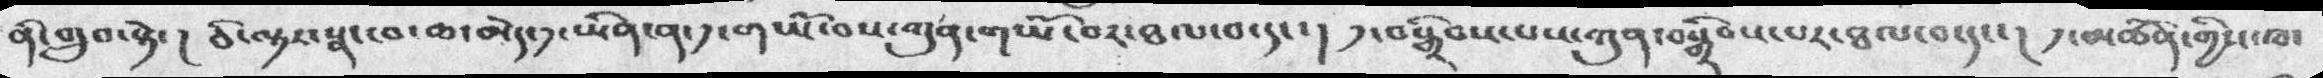ནི་གྲུབ་སྟེ་། ཅི་ལྟར་སྣང་བ་ཆ་མེད་༡་ཡིན་ན་༡་གཡོ་བས་ཀུན་གཡོ་བར་ཐལ་བ་དང་། ༡་བསྒྲིབས་པས་ཀུན་བསྒྲིབས་པར་ཐལ་བ་དང་།  ༡་མཚོན་གྱིས་ཁ་
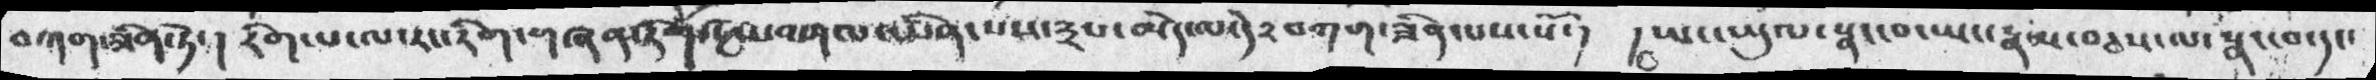བཀག་ཟིན་ཏེ་།   རིག་པ་ལ་རང་རིག་གཞན་རིག་སྔོས་བགལ་ཡིན་པས་༣པ་མེད་ལ་དེ༢་བགག་ཟིན་པས་སོ་།   ། ཡང་ཡུལ་སྣང་བ་ཡང་རྣམ་བཅས་ལ་སྣང་བ་དང་
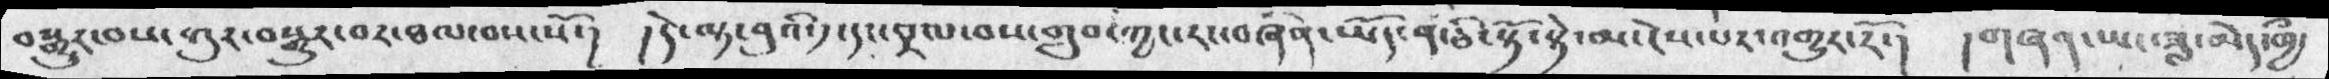བསྒྱུར་བས་ཀུར་བསྒྱུར་བར་ཐལ་བས་སོ་།  །དེ་ལྟ་བུའི་༡་དང་བྲལ་བས་གྲུབ་ཀྱང་རང་བཞིན་ཡོད་ན་ཅི་སྟོ་སྟེ་མ་ངེས་པར་འགྱུར་རོ་།  །གཞན་ཡང་ཟླ་མེད་ཁྱཾ་
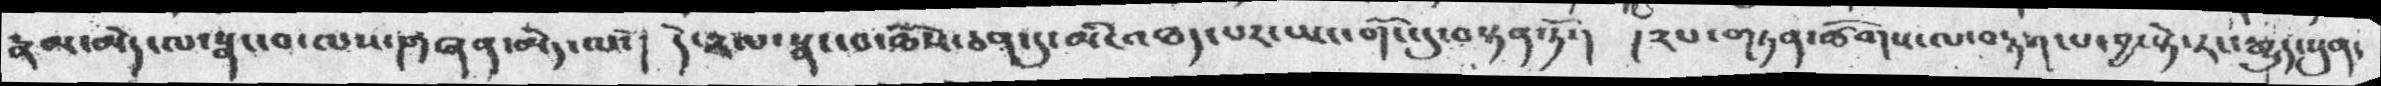རྣམ་མེད་ལ་སྣང་བ་ལས་གཞན་མེད་ལ་།  དེ་༢ལ་སྣང་བ་ཆོས་ཅན་དུ་མི་འཐད་པར་ཡང་གོང་དུ་བསྟན་ཏོ་།  །༢པ་གཏན་ཚོགས་ལ་བརྟག་པ་བྱ་སྟེ་རང་རྒྱུད་སུན་
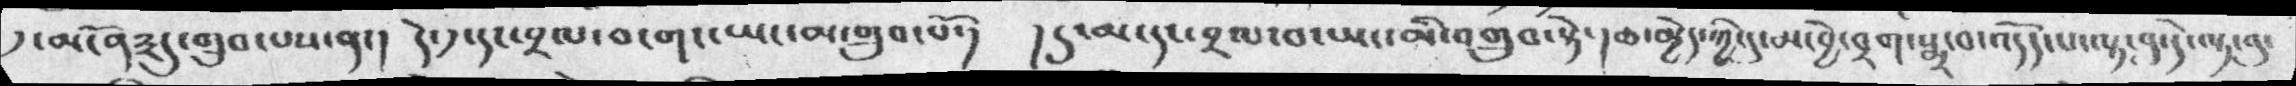དུ་མངོན༣དུ་གྲུབ་པས་ན་།  དེ་༡་དང་བྲལ་བ་གང་ཡང་མ་གྲུབ་པོ་།  །དུ་མ་དང་བྲལ་བ་ཡང་མི་འགྲུབ་སྟེ་།ཆ་མྱེད་ཀྱི་དུ་མ་བྱེ་བྲག་སྨྲ་བ་འདོད་པ་ལྟ་བུ་དེ་ལྟ་བུ་
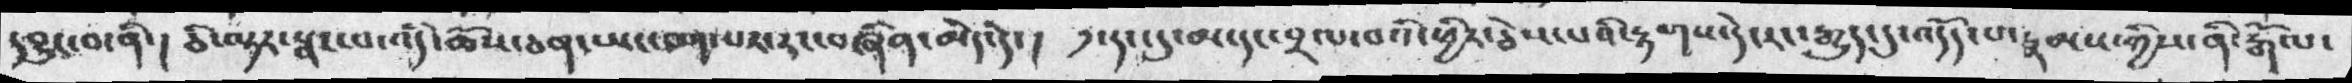དབྱུང་བ་ནི་།  ཅི་ལྟར་སྣང་པ་འདི་ཆོས་ཅན་ཡང་བག་པར་རང་བཞིན་མེད་དེ་།   ༡་དང་དུ་མ་དང་བྲལ་བའི་ཕྱིར་ཅེས་པའི་རྟགས་དེ་རང་རྒྱུད་དུ་འདོད་པ་རྣམས་ཀྱིས་ནི་རྒོལ་
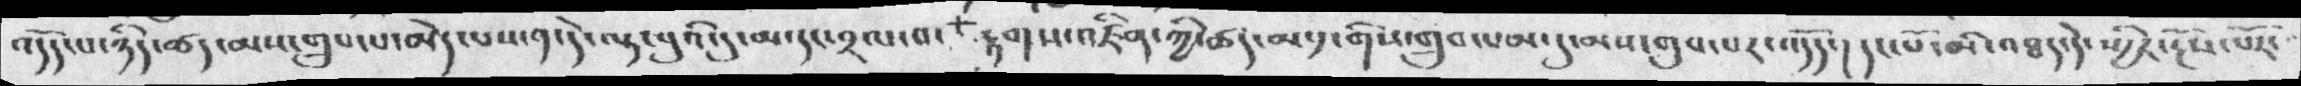འདོད་པ་ཉིད་ཚད་མས་གྲུབ་པ་མེད་པས་ན་དེ་ལྟ་བུའི་དུ་མ་དངད་བྲལ་བ་རྟགས་འཛིན་ཀྱི་ཚད་མ་༡་གིས་གྲུབ་པམ་དུ་མས་གྲུབ་པར་འདོད་།  དང་པོ་མི་འཐད་དེ་ཡྱིར་རྔོས་པོར་
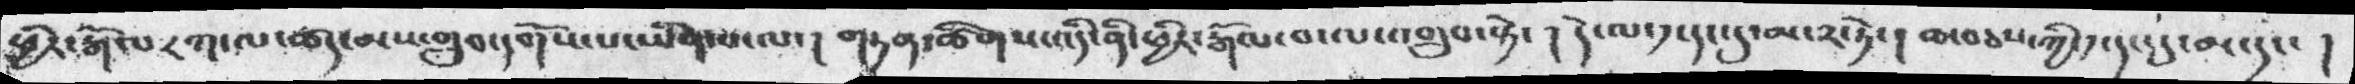ཕྱིར་རྒོལ༨ཀ་ལ་ཚད་མས་གྲུབ་དགོས་པ་ཡིན་པ་ལ་། གཏན་ཚིགས་འདི་ནི་ཕྱིར་རྒོལ་བ་ལ་འགྲུབ་སྟེ་། དེ་ལ་༡་དང་དུ་མ་༢་ཏེ་། ཆ་བཅས་ཀྱི་༡་དང་དུ་མ་དང་ །
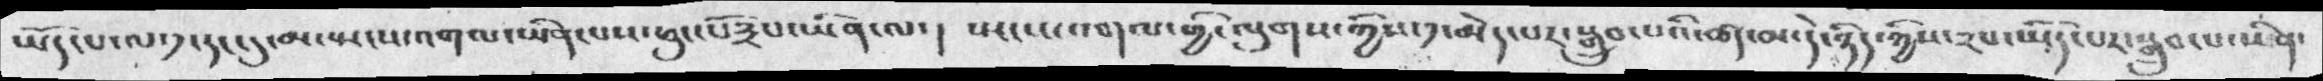ཡོད་པ་ལ་༡་དང་དུ་མ་ཡངས་འགལ་ཡིན་པས་ཕུང་པོ༣པ་ཡིན་ལ་།   ཡངས་འགལ་གྱི་ལུགས་ཀྱིས་༡་མེད་པར་གྲུབ་པའི་ཚད་མ་དེ་ཉིད་ཀྱིས་༢པ་མེད་པར་སྒྲུབ་པ་ཡིན་
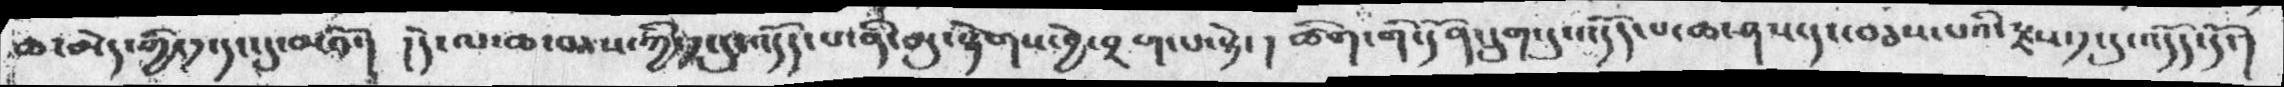ཆ་མེད་ཀྱི་༡་དང་དུ་མའོ་།  །དེ་ལ་ཆ་མས་ཀྱི་༡་དུ་འདོད་པ་ནི་མུ་སྟེགས་བྱེ་བྲག་པ་སྟེ་། ཚིག་གི་དོན་དྲུག་དུ་འདོད་པ་ཆ་ཤས་དང་བཅས་པའི་རྫས་༡་དུ་འདོད་དོ་།
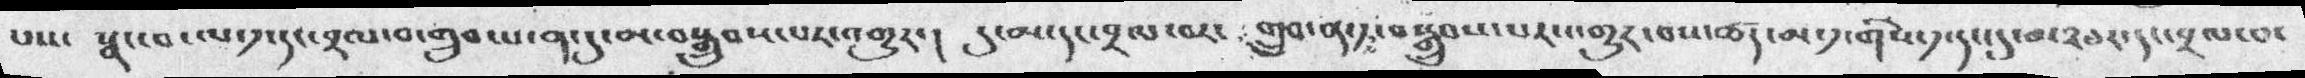པས་    སྣང་བ་ལ་༡་དང་བྲལ་བ་གྲུབ་པ་ན་དུ་མ་བསྒྲུབས་པར་འགྱུར་།   དུ་མ་དང་བྲལ་བར་  གྲུབ་ན་༡་བསྒྲུབས་པར་འགྱུར་བས་ཚད་མ་༡་དང་དུ་མ༢ཅར་དང་བྲལ་བ་
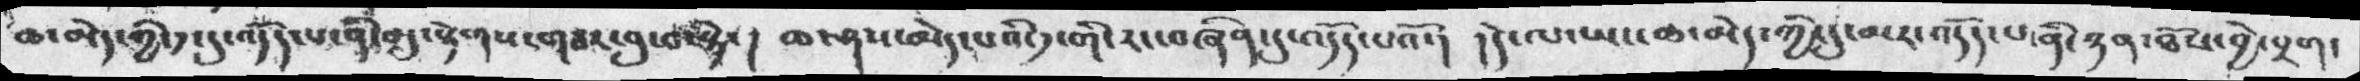ཆ་མེད་གྱི་༡་དུ་འདོད་པ་ནི་མུ་སྟེགས་གཅར་བུ་བ་སྟེ་།   ཆ་ཤས་མེད་པའི་༡་གི་རང་བཞིན་དུ་འདོད་པའོ་།  ། དེ་ལ་ཡང་ཆ་མེད་ཀྱི་དུ་མར་འདོད་པ་ནི་ཉམ་ཐོས་བྱེ་བྲག་
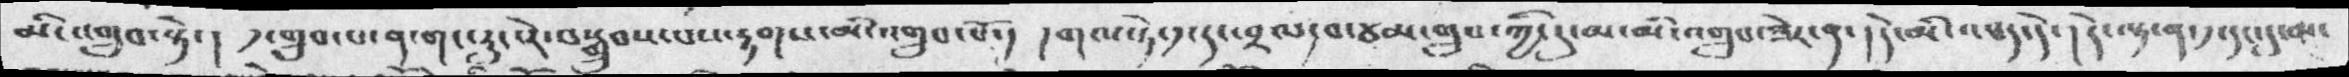མི་འགྲུབ་སྟེ་།   ༡གྲུབ་པ་ན་གང་རུང་རེ་བསྒྲུབས་པས་རྟགས་མི་འགྲུབ་པོ་།  །གལ་ཏེ་༡་དང་བྲལ་བ་ཙམ་གྲུབ་ཀྱི་དུ་མ་མི་འགྲུབ་ཟེར་ན་།  དེ་མི་འཐད་དེ་།   དེ་ལྟ་ན་༡་དང་དུ་མ་
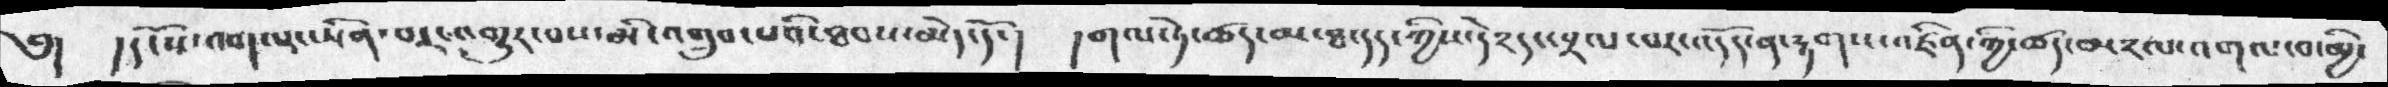༅། །དངོས་འགལ་ཡིན་པར་འགྱུར་བས་མི་འགྲུབ་པའི་ཐབས་མེད་དོ་།  །གལ་ཏེ་ཚད་མ་ཐ་དད་ཀྱིས་དེ༢དང་བྲལ་བར་འདོད་ན་རྟགས་འཛིན་ཀྱི་ཚད་མ༢ལ་འགལ་བ་མྱི་
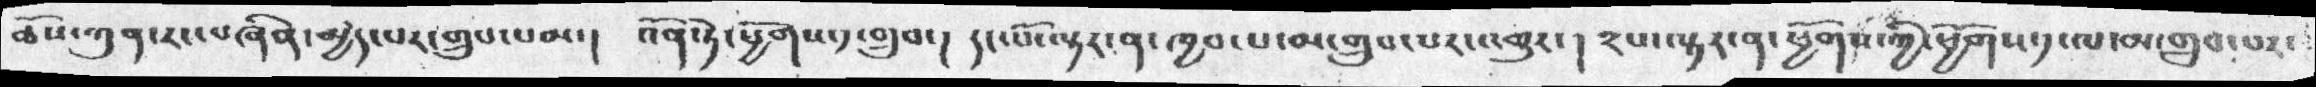ཆོས་ཀུན་རང་བཞིན་མྱེད་པར་གྲུབ་པམ་།  འོན་ཏེ་ཕྱོགས་༡་གྲུབ་།  དང་པོ་ལྟར་ན་ཁྱབ་པ་མ་གྲུབ་པར་འགྱུར་། ༢པ་ལྟར་ན་ཕྱོགས་ཀྱི་ཕྱོགས་༡་ལ་མ་གྲུབ་པར་
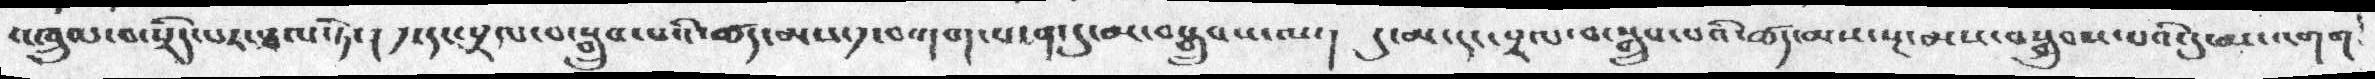འཁྲུལ་བ་སྲིད་པར་ཐལ་ཏེ་།  ༡་དང་བྲལ་བ་སྒྲུབ་པའི་ཚད་མས་༡་འགག་པ་ན་དུ་མ་བསྒྲུབས་ལ་།  དུ་མ་དང་བྲལ་བ་སྒྲུབ་པའི་ཚད་མས་སྔ་མས་བསྒྲུབས་པའི་དུ་མ་འགག
